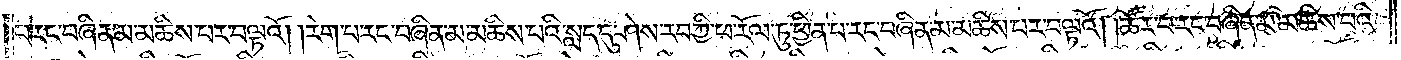པ་རང་བཞིན་མ་མཆིས་པར་བལྟའོ། །རེག་པ་རང་བཞིན་མ་མཆིས་པའི་སླད་དུ་ཤེས་རབ་ཀྱི་ཕ་རོལ་ཏུ་ཕྱིན་པ་རང་བཞིན་མ་མཆིས་པར་བལྟའོ། །ཚོར་བ་རང་བཞིན་མ་མཆིས་པའི་
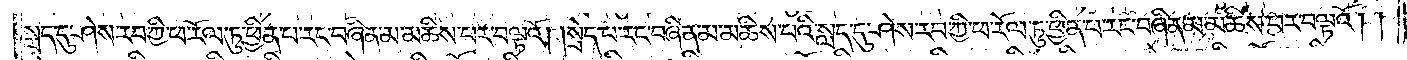སླད་དུ་ཤེས་རབ་ཀྱི་ཕ་རོལ་ཏུ་ཕྱིན་པ་རང་བཞིན་མ་མཆིས་པར་བལྟའོ། །སྲེད་པ་རང་བཞིན་མ་མཆིས་པའི་སླད་དུ་ཤེས་རབ་ཀྱི་ཕ་རོལ་ཏུ་ཕྱིན་པ་རང་བཞིན་མ་མཆིས་པར་བལྟའོ། །
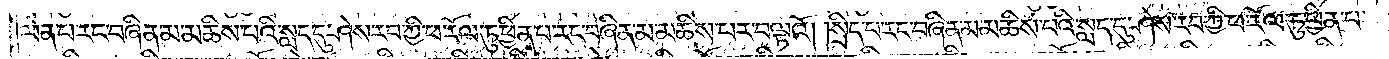ལེན་པ་རང་བཞིན་མ་མཆིས་པའི་སླད་དུ་ཤེས་རབ་ཀྱི་ཕ་རོལ་ཏུ་ཕྱིན་པ་རང་བཞིན་མ་མཆིས་པར་བལྟའོ། །སྲིད་པ་རང་བཞིན་མ་མཆིས་པའི་སླད་དུ་ཤེས་རབ་ཀྱི་ཕ་རོལ་ཏུ་ཕྱིན་པ་
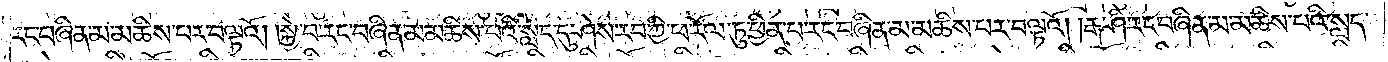རང་བཞིན་མ་མཆིས་པར་བལྟའོ། །སྐྱེ་བ་རང་བཞིན་མ་མཆིས་པའི་སླད་དུ་ཤེས་རབ་ཀྱི་ཕ་རོལ་ཏུ་ཕྱིན་པ་རང་བཞིན་མ་མཆིས་པར་བལྟའོ། །རྒ་ཤི་རང་བཞིན་མ་མཆིས་པའི་སླད་
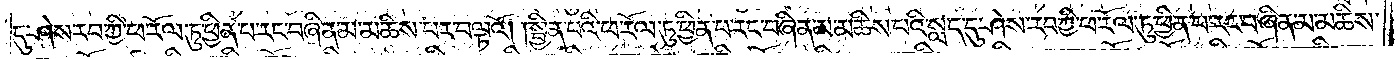དུ་ཤེས་རབ་ཀྱི་ཕ་རོལ་ཏུ་ཕྱིན་པ་རང་བཞིན་མ་མཆིས་པར་བལྟའོ། །སྦྱིན་པའི་ཕ་རོལ་ཏུ་ཕྱིན་པ་རང་བཞིན་མ་མཆིས་པའི་སླད་དུ་ཤེས་རབ་ཀྱི་ཕ་རོལ་ཏུ་ཕྱིན་པ་རང་བཞིན་མ་མཆིས་
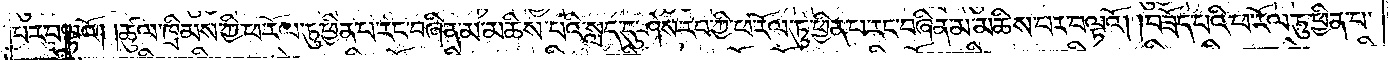པར་བལྟའོ། །ཚུལ་ཁྲིམས་ཀྱི་ཕ་རོལ་ཏུ་ཕྱིན་པ་རང་བཞིན་མ་མཆིས་པའི་སླད་དུ་ཤེས་རབ་ཀྱི་ཕ་རོལ་ཏུ་ཕྱིན་པ་རང་བཞིན་མ་མཆིས་པར་བལྟའོ། །བཟོད་པའི་ཕ་རོལ་ཏུ་ཕྱིན་པ་
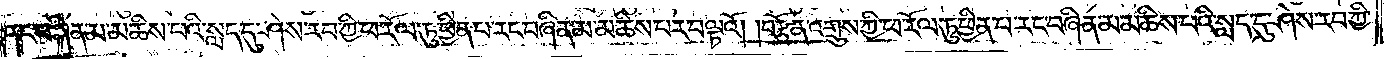རང་བཞིན་མ་མཆིས་པའི་སླད་དུ་ཤེས་རབ་ཀྱི་ཕ་རོལ་ཏུ་ཕྱིན་པ་རང་བཞིན་མ་མཆིས་པར་བལྟའོ། །བརྩོན་འགྲུས་ཀྱི་ཕ་རོལ་ཏུ་ཕྱིན་པ་རང་བཞིན་མ་མཆིས་པའི་སླད་དུ་ཤེས་རབ་ཀྱི་
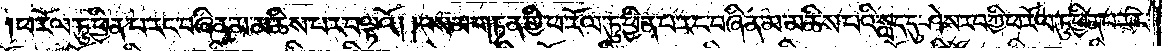ཕ་རོལ་ཏུ་ཕྱིན་པ་རང་བཞིན་མ་མཆིས་པར་བལྟའོ། །བསམ་གཏན་གྱི་ཕ་རོལ་ཏུ་ཕྱིན་པ་རང་བཞིན་མ་མཆིས་པའི་སླད་དུ་ཤེས་རབ་ཀྱི་ཕ་རོལ་ཏུ་ཕྱིན་པ་རང་
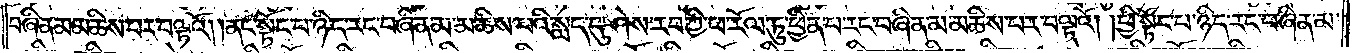བཞིན་མ་མཆིས་པར་བལྟའོ། །ནང་སྟོང་པ་ཉིད་རང་བཞིན་མ་མཆིས་པའི་སླད་དུ་ཤེས་རབ་ཀྱི་ཕ་རོལ་ཏུ་ཕྱིན་པ་རང་བཞིན་མ་མཆིས་པར་བལྟའོ། །ཕྱི་སྟོང་པ་ཉིད་རང་བཞིན་མ་
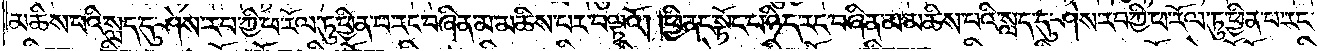མཆིས་པའི་སླད་དུ་ཤེས་རབ་ཀྱི་ཕ་རོལ་ཏུ་ཕྱིན་པ་རང་བཞིན་མ་མཆིས་པར་བལྟའོ། །ཕྱི་ནང་སྟོང་པ་ཉིད་རང་བཞིན་མ་མཆིས་པའི་སླད་དུ་ཤེས་རབ་ཀྱི་ཕ་རོལ་ཏུ་ཕྱིན་པ་རང་
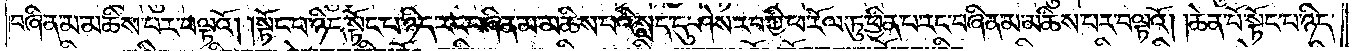བཞིན་མ་མཆིས་པར་བལྟའོ། །སྟོང་པ་ཉིད་སྟོང་པ་ཉིད་རང་བཞིན་མ་མཆིས་པའི་སླད་དུ་ཤེས་རབ་ཀྱི་ཕ་རོལ་ཏུ་ཕྱིན་པ་རང་བཞིན་མ་མཆིས་པར་བལྟའོ། །ཆེན་པོ་སྟོང་པ་ཉིད་
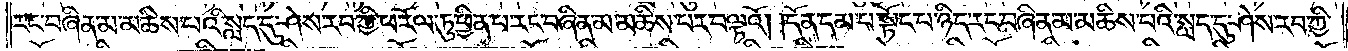རང་བཞིན་མ་མཆིས་པའི་སླད་དུ་ཤེས་རབ་ཀྱི་ཕ་རོལ་ཏུ་ཕྱིན་པ་རང་བཞིན་མ་མཆིས་པར་བལྟའོ། །དོན་དམ་པ་སྟོང་པ་ཉིད་རང་བཞིན་མ་མཆིས་པའི་སླད་དུ་ཤེས་རབ་ཀྱི་
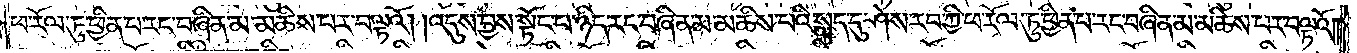ཕ་རོལ་ཏུ་ཕྱིན་པ་རང་བཞིན་མ་མཆིས་པར་བལྟའོ། །འདུས་བྱས་སྟོང་པ་ཉིད་རང་བཞིན་མ་མཆིས་པའི་སླད་དུ་ཤེས་རབ་ཀྱི་ཕ་རོལ་ཏུ་ཕྱིན་པ་རང་བཞིན་མ་མཆིས་པར་བལྟའོ། །
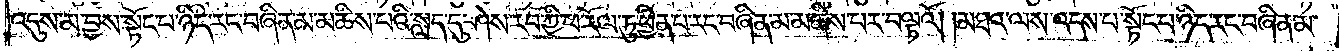འདུས་མ་བྱས་སྟོང་པ་ཉིད་རང་བཞིན་མ་མཆིས་པའི་སླད་དུ་ཤེས་རབ་ཀྱི་ཕ་རོལ་ཏུ་ཕྱིན་པ་རང་བཞིན་མ་མཆིས་པར་བལྟའོ། །མཐའ་ལས་འདས་པ་སྟོང་པ་ཉིད་རང་བཞིན་མ་
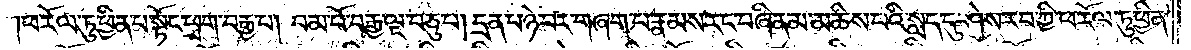ཕ་རོལ་ཏུ་ཕྱིན་པ་སྟོང་ཕྲག་བརྒྱ་པ། །བམ་པོ་བརྒྱ་ལྔ་བཅུ་པ། །དྲན་པ་ཉེ་བར་གཞག་པ་རྣམས་རང་བཞིན་མ་མཆིས་པའི་སླད་དུ་ཤེས་རབ་ཀྱི་ཕ་རོལ་ཏུ་ཕྱིན་
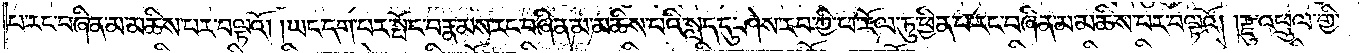པ་རང་བཞིན་མ་མཆིས་པར་བལྟའོ། །ཡང་དག་པར་སྤོང་བ་རྣམས་རང་བཞིན་མ་མཆིས་པའི་སླད་དུ་ཤེས་རབ་ཀྱི་ཕ་རོལ་ཏུ་ཕྱིན་པ་རང་བཞིན་མ་མཆིས་པར་བལྟའོ། །རྫུ་འཕྲུལ་གྱི་
